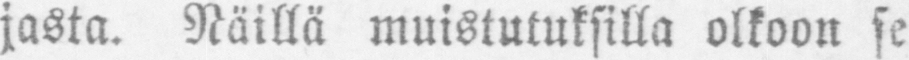jasta. Näillä muistutuksilla olkoon se
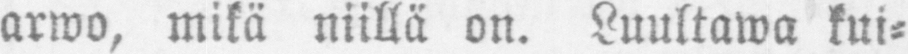arwo, mikä niillä on. Luultawa kui-
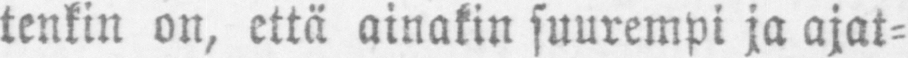tenkin on, että ainakin suurempi ja ajat-
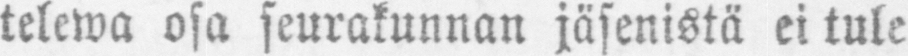telewa osa seurakunnan jäsenistä ei tule
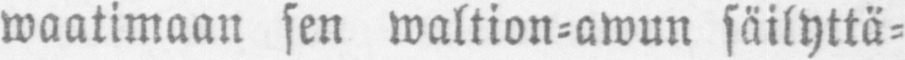waatimaan sen waltion-awun säilyttä-
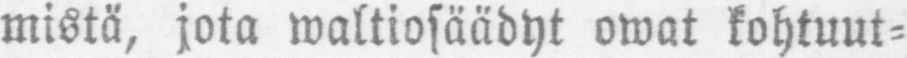mistä, jota waltiosäädyt owat kohtuut-
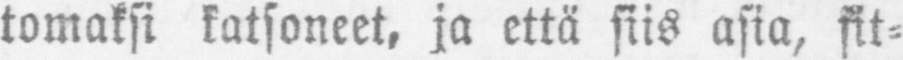tomaksi katsoneet, ja että siis asia, sit-
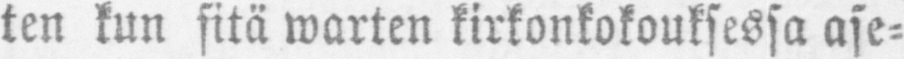ten kun sitä warten kirkonkokouksessa ase-
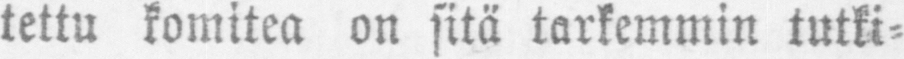tettu komitea on sitä tarkemmin tutki-
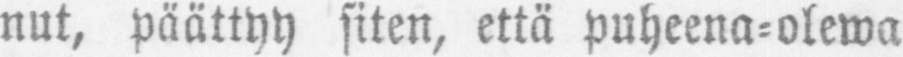nut, päättyy siten, että puheena-olewa
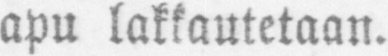apu lakkautetaan.
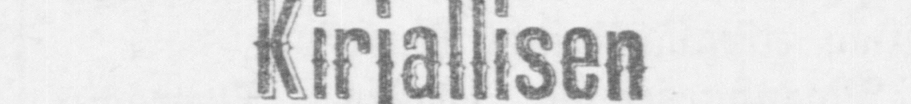Kirjallisen
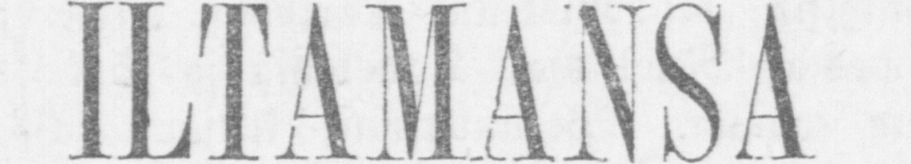ILTAMANSA
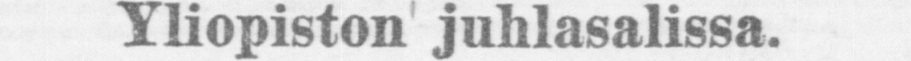Yliopiston juhlasalissa.
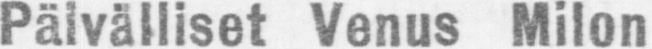Aine: Päivälliset Venus Milon
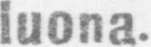luona.
